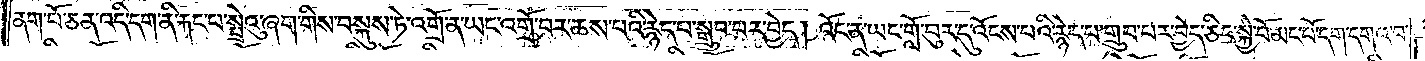ནག་པོ་ཅན་འདི་དག་ནི་རྐང་པ་སྤྲེའུ་ཞག་གིས་བསྐུས་ཏེ་འགྲོ་ན་ཡང་འགྲོ་བར་ཆས་པའི་རྙེད་པ་སྒྲུབ་པར་བྱེད། འོང་ན་ཡང་གློ་བུར་དུ་འོངས་པའི་རྙེད་པ་གྲུབ་པར་བྱེད་ཅིང་སྐྱེ་བོ་དག་དགའ་བ་
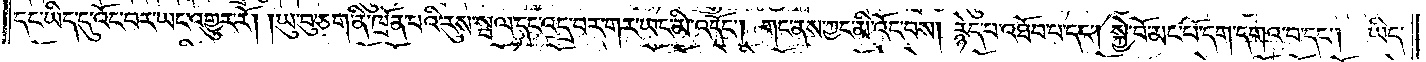དང་ཡིད་དུ་འོང་བར་ཡང་འགྱུར་རོ། །ཡུ་བུ་ཅག་ནི་ཁྲོན་པའི་རུས་སྦལ་དང་འདྲ་བར་གར་ཡང་མི་འདོང༌། གང་ནས་ཀྱང་མི་འོང་བས། རྙེད་པ་འཐོབ་པ་དང༌། སྐྱེ་བོ་མང་པོ་དག་དགའ་བ་དང༌། ཡིད་
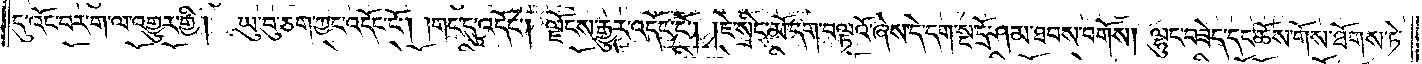དུ་འོང་བར་ག་ལ་འགྱུར་གྱི། ཡུ་བུ་ཅག་ཀྱང་འདོང་ངོ༌། །གང་དུ་འདོང༌། ལྗོངས་རྒྱུར་འདོང་ངོ༌། །ཇེ་སྲིང་མོ་དག་བལྟའོ་ཞེས་དེ་དག་སྔ་དྲོ་ཤམ་ཐམས་བགོས། ལྷུང་བཟེད་དང་ཆོས་གོས་ཐོགས་ཏེ་
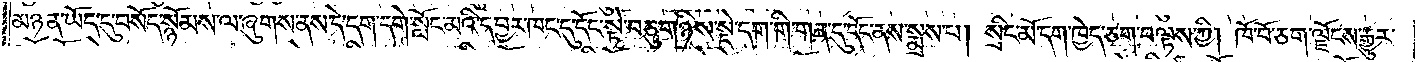མཉན་ཡོད་དུ་བསོད་སྙོམས་ལ་ཞུགས་ནས་དེ་དག་དགེ་སློང་མའི་དབྱར་ཁང་དུ་དོང་སྟེ་བཅུ་གཉིས་སྡེ་དག་གི་གན་དུ་དོང་ནས་སྨྲས་པ། སྲིང་མོ་དག་ཁྱེད་ཅག་བལྟས་ཀྱི། ཁོ་བོ་ཅག་ལྗོངས་རྒྱུར་
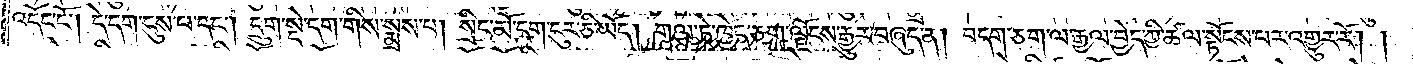འདོང་ངོ༌། །དེ་དག་དུས་པ་དང༌། དྲུག་སྡེ་དག་གིས་སྨྲས་པ། སྲིང་མོ་དག་ངུར་ཅི་ཡོད། གལ་ཏེ་ཁྱེད་ཅག་ལྗོངས་རྒྱུར་བཞུད་ན། བདག་ཅག་ལ་རྒྱལ་བྱེད་ཀྱི་ཚལ་སྟོངས་པར་འགྱུར་རོ། །
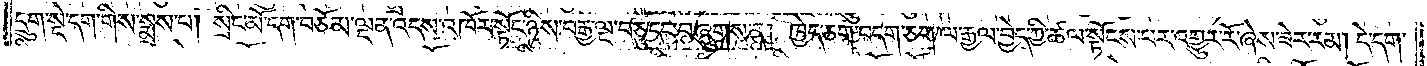དྲུག་སྡེ་དག་གིས་སྨྲས་པ། སྲིང་མོ་དག་བཅོམ་ལྡན་འདས་འཁོར་སྟོང་ཉིས་བརྒྱ་ལྔ་བཅུ་དང་བཞུགས་ན། ཁྱེད་ཅག་བདག་ཅག་ལ་རྒྱལ་བྱེད་ཀྱི་ཚལ་སྟོངས་པར་འགྱུར་རོ་ཞེས་ཟེར་རམ། དེ་དག་
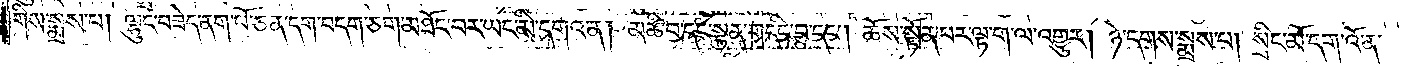གིས་སྨྲས་པ། ལྷུང་བཟེད་ནག་པོ་ཅན་དག་བདག་ཅག་མཐོང་བར་ཡང་མི་དགའ་ན། མཆི་བ་དང་སྟན་གདིང་བ་དང༌། ཆོས་སྟོན་པར་ལྟ་ག་ལ་འགྱུར། ཉེ་དགས་སྨྲས་པ། སྲིང་མོ་དག་འོ་ན་
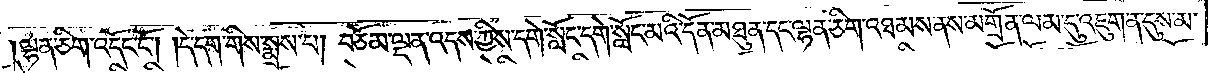ལྷན་ཅིག་འདོང་ངོ༌། །དེ་དག་གིས་སྨྲས་པ། བཅོམ་ལྡན་འདས་ཀྱིས་དགེ་སློང་དགེ་སློང་མའི་དོན་མཐུན་དང་ལྷན་ཅིག་འཐམས་ནས་མགྲོན་ལམ་དུ་འཇུག་ན་དུས་མ་
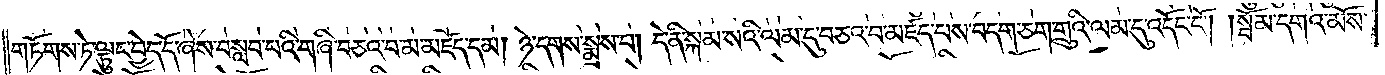གཏོགས་ཏེ་ལྟུང་བྱེད་དོ་ཞེས་བསླབ་པའི་གཞི་བཅའ་བ་མཛད་དམ། ཉེ་དགས་སྨྲས་པ། དེ་ནི་སྐམ་སའི་ལམ་དུ་བཅའ་བ་མཛད་པས་བདག་ཅག་གྲུའི་ལམ་དུ་འདོང་ངོ༌། །སྦོམ་དགའ་མོས་
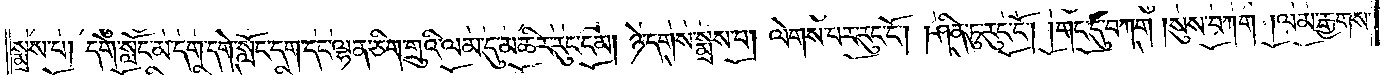སྨྲས་པ། དགེ་སློང་མ་དག་དགེ་སློང་དག་དང་ལྷན་ཅིག་གྲུའི་ལམ་དུ་མཆིར་རུང་ངམ། ཉེ་དགས་སྨྲས་པ། ལེགས་པར་རུང་ངོ༌། །ཤིན་ཏུ་རུང་ངོ༌། །གང་དུ་བཀག །སུས་བཀག །ལམ་རྒྱགས་
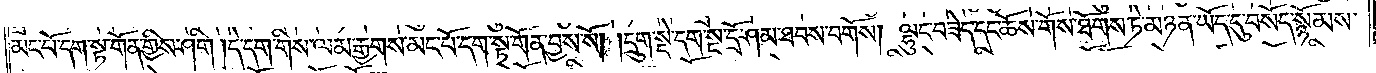མང་པོ་དག་སྟ་གོན་གྱིས་ཤིག །དེ་དག་གིས་ལམ་རྒྱགས་མང་པོ་དག་སྟ་གོན་བྱས་སོ། །དྲུག་སྡེ་དག་སྔ་དྲོ་ཤམ་ཐབས་བགོས། ལྷུང་བཟེད་དང་ཆོས་གོས་ཐོགས་ཏེ་མཉན་ཡོད་དུ་བསོད་སྙོམས་
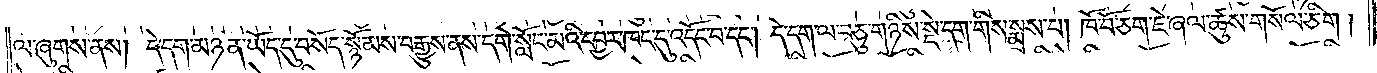ལ་ཞུགས་ནས། དེ་དག་མཉན་ཡོད་དུ་བསོད་སྙོམས་བརྒྱུས་ནས་དགེ་སློང་མའི་དབྱར་ཁང་དུ་འདོང་བ་དང༌། དེ་དག་ལ་བཅུ་གཉིས་སྡེ་དག་གིས་སྨྲས་པ། ཁོ་བོ་ཅག་ཇེ་ཞལ་ཚུས་གསོལ་ཅིག །
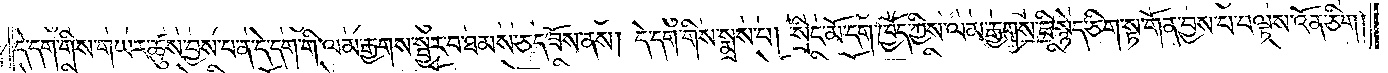དེ་དག་གིས་གཡར་ཚུས་བྱས་པ་ན་དེ་དག་གི་ལམ་རྒྱགས་སྦྱར་བ་ཐམས་ཅད་ཟོས་ནས། དེ་དག་གིས་སྨྲས་པ། སྲིང་མོ་དག་ཁྱོད་ཀྱིས་ལམ་རྒྱགས་ཇི་རྙེད་ཅིག་སྟ་གོན་བྱས་པ་བལྟས་འོན་ཅིག།
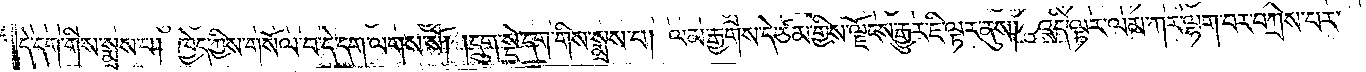དེ་དག་གིས་སྨྲས་པ། ཁྱེད་ཀྱིས་གསོལ་པ་དེ་དག་ལགས་སོ། །དྲུག་སྡེ་དག་གིས་སྨྲས་པ། ལམ་རྒྱགས་དེ་ཙམ་གྱིས་ལྗོངས་རྒྱུར་ཇི་ལྟར་ནུས། འདི་ལྟར་ལམ་ཀར་ལྷག་པར་བཀྲེས་པར་
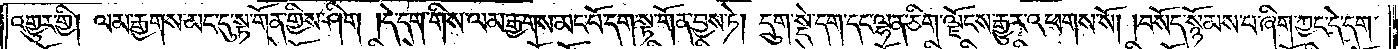འགྱུར་གྱི། ལམ་རྒྱགས་མང་དུ་སྟ་གོན་གྱིས་ཤིག །དེ་དག་གིས་ལམ་རྒྱགས་མང་པོ་དག་སྟ་གོན་བྱས་ཏེ། དྲུག་སྡེ་དག་དང་ལྷན་ཅིག་ལྗོངས་རྒྱུར་འཕགས་སོ། །བསོད་སྙོམས་པ་ཞིག་ཀྱང་དེ་དག་
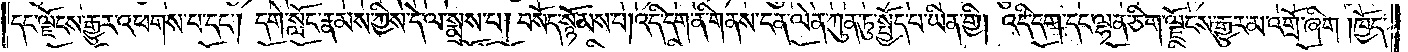དང་ལྗོངས་རྒྱུར་འཕགས་པ་དང༌། དགེ་སློང་རྣམས་ཀྱིས་དེ་ལ་སྨྲས་པ། བསོད་སྙོམས་པ། འདི་དག་ནི་གནས་ངན་ལེན་ཀུན་ཏུ་སྤྱོད་པ་ཡིན་གྱི། འདི་དག་དང་ལྷན་ཅིག་ལྗོངས་རྒྱུར་མ་འགྲོ་ཞིག །ཁྱོད་
